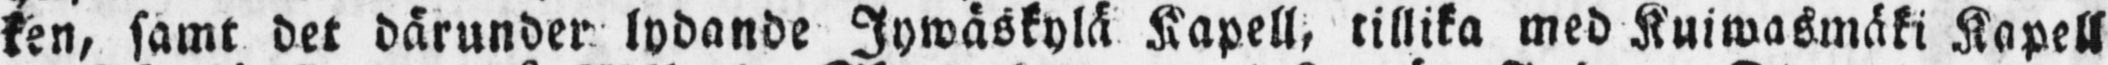ken, samt det därunder lydande Jywäskylä Kapell, tillika med Kuiwasmäki Kapell
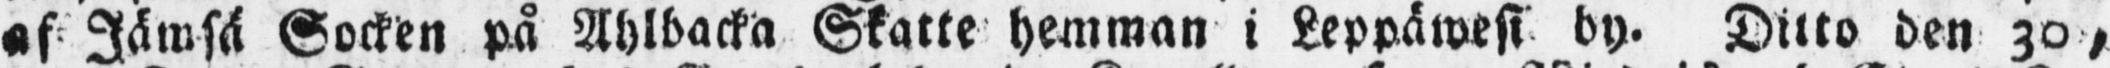af Jämsä Socken på Ahlbacka Skatte hemman i Leppäwesi by. Ditto den 30,
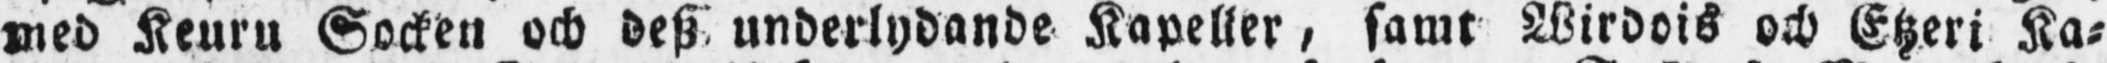med Keuru Socken och desz underlydande Kapeller, samt Wirdois och Etzeri Ka-
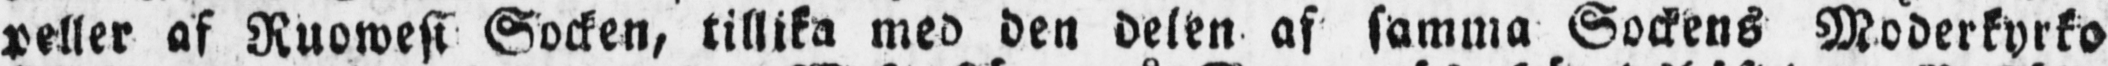peller af Ruowesi Socken, tillika med den delen af samma Sockens Moderkyrko
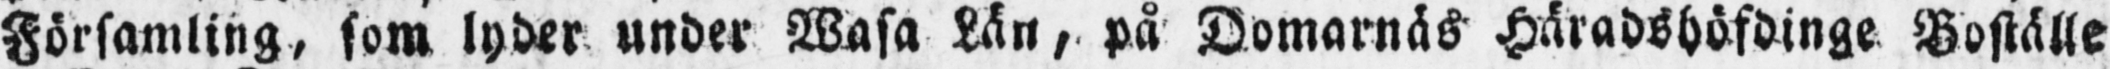Församling, som lyder under Wasa Län, på Domarnäs Häradshöfdinge Boställe
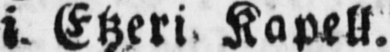i. Etzeri Kapell.
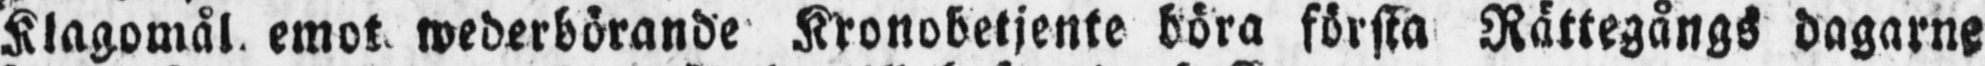Klagomål emot wederbörande Kronobetjente böra första Rättegångs dagarne
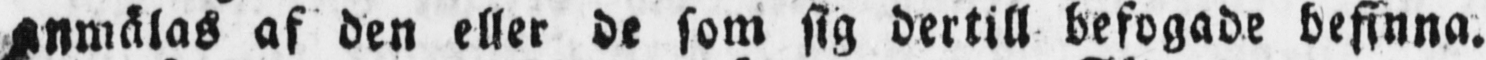anmälas af den eller de som sig dertill befogade befinna.
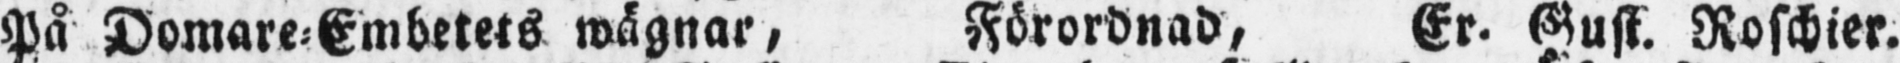På Domare-Embetets wägnar, Förordnad, Er. Gust. Roschier.
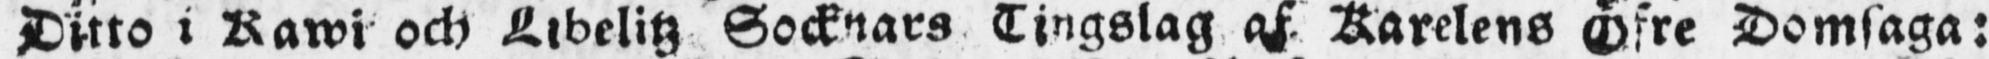Ditto i Kawi och Libelitz Socknars Tingslag af Karelens Öfre Domsaga:
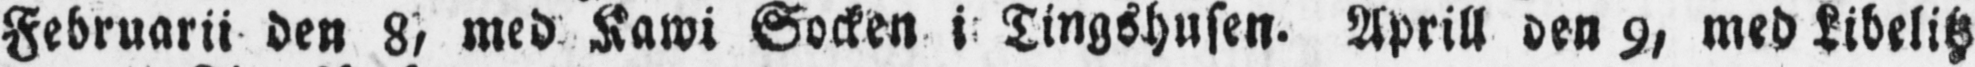Februarii den 8, med Kawi Socken i Tingshusen. Aprill den 9, med Libelitz
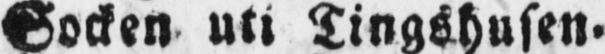Socken uti Tingshusen.
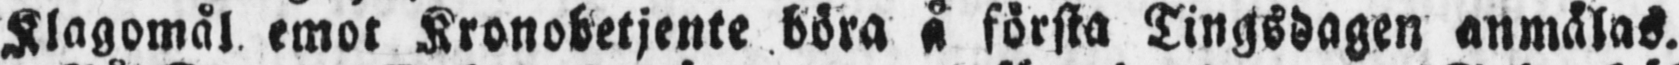Klagomål emot Kronobetjente böra å första Tingsdagen anmälas.
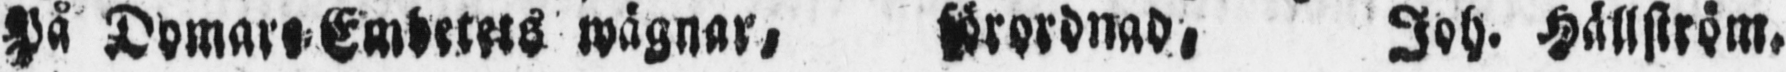På Domare-Embetets wägnar, förordnad, Joh. Hällström.
